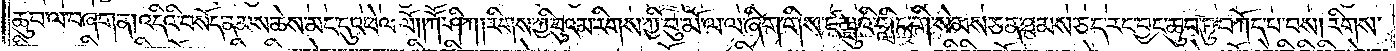ཆུབ་ལ་བཞག་ན། འདིའི་བསོད་ནམས་ཆེས་མང་དུ་འཕེལ་ལོ༎ཀཽ་ཤི་ཀ། རིགས་ཀྱི་བུའམ་རིགས་ཀྱི་བུ་མོ་ལ་ལ་ཞིག་གིས་ཛམྦུའི་གླིང་གི་སེམས་ཅན་ཐམས་ཅད་རང་བྱང་ཆུབ་ཏུ་བཀོད་པ་བས། རིགས་
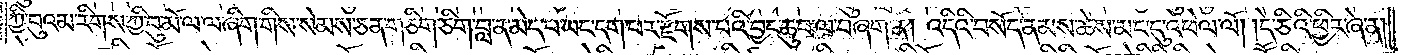ཀྱི་བུའམ་རིགས་ཀྱི་བུ་མོ་ལ་ལ་ཞིག་གིས་སེམས་ཅན་གཅིག་ཅིག་བླ་ན་མེད་པ་ཡང་དག་པར་རྫོགས་པའི་བྱང་ཆུབ་ལ་བཞག་ན། འདིའི་བསོད་ནམས་ཆེས་མང་དུ་འཕེལ་ལོ། །དེ་ཅིའི་ཕྱིར་ཞེ་ན།
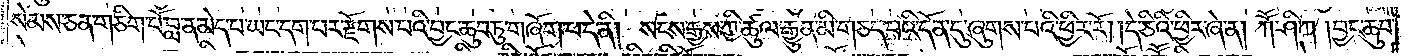སེམས་ཅན་གཅིག་པོ་བླ་ན་མེད་པ་ཡང་དག་པར་རྫོགས་པའི་བྱང་ཆུབ་ཏུ་གཞོག་པ་དེ་ནི། སངས་རྒྱས་ཀྱི་ཚུལ་རྒྱུན་མི་གཅད་པའི་དོན་དུ་ཞུགས་པའི་ཕྱིར་རོ། །དེ་ཅིའི་ཕྱིར་ཞེ་ན། ཀཽ་ཤི་ཀ །བྱང་ཆུབ་
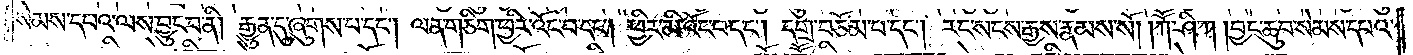སེམས་དཔའ་ལས་བྱུང་བ་ནི། རྒྱུན་དུ་ཞུགས་པ་དང༌། ལན་གཅིག་ཕྱིར་འོང་བ་དང༌། ཕྱིར་མི་འོང་བ་དང༌། དགྲ་བཅོམ་པ་དང༌། རང་སངས་རྒྱས་རྣམས་སོ། །ཀཽ་ཤི་ཀ །བྱང་ཆུབ་སེམས་དཔའ་
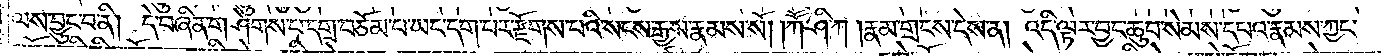ལས་བྱུང་བ་ནི། དེ་བཞིན་གཤེགས་པ་དགྲ་བཅོམ་པ་ཡང་དག་པར་རྫོགས་པའི་སངས་རྒྱས་རྣམས་སོ། །ཀཽ་ཤི་ཀ །རྣམ་གྲངས་དེས་ན། འདི་ལྟར་བྱང་ཆུབ་སེམས་དཔའ་རྣམས་ཀྱང་
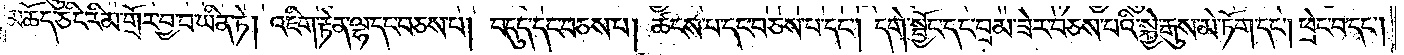མཆོད་ཅིང་རིམ་གྲོར་བྱ་བ་ཡིན་ཏེ། འཇིག་རྟེན་ལྷ་དང་བཅས་པ། བདུད་དང་བཅས་པ། ཚངས་པ་དང་བཅས་པ་དང༌། དགེ་སྦྱོང་དང་བྲམ་ཟེར་བཅས་པའི་སྐྱེ་དགུས་མེ་ཏོག་དང༌། ཕྲེང་བ་དང༌།
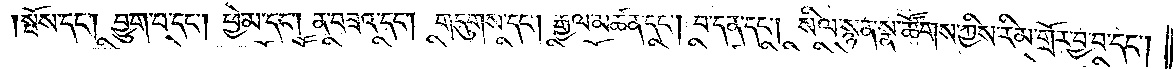སྤོས་དང༌། བྱུག་པ་དང༌། ཕྱེ་མ་དང༌། ན་བཟའ་དང༌། གདུགས་དང༌། རྒྱལ་མཚན་དང༌། བ་དན་དང༌། སིལ་སྙན་སྣ་ཚོགས་ཀྱིས་རིམ་གྲོར་བྱ་བ་དང༌།
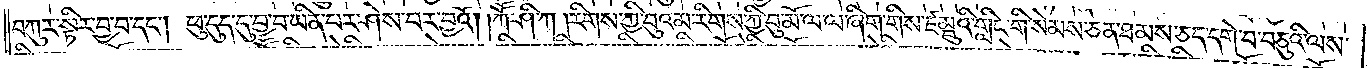བཀུར་སྟིར་བྱ་བ་དང༌། ཕུ་དུད་དུ་བྱ་བ་ཡིན་པར་ཤེས་པར་བྱའོ། །ཀཽ་ཤི་ཀ །རིགས་ཀྱི་བུའམ་རིགས་ཀྱི་བུ་མོ་ལ་ལ་ཞིག་གིས་ཛམྦུའི་གླིང་གི་སེམས་ཅན་ཐམས་ཅད་དགེ་བ་བཅུའི་ལས་
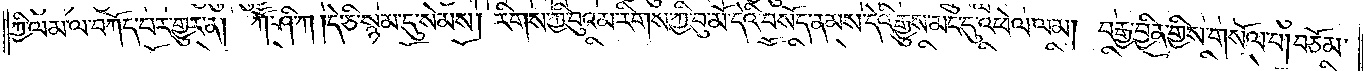ཀྱི་ལམ་ལ་བཀོད་པར་གྱུར་ན། ཀཽ་ཤི་ཀ །དེ་ཅི་སྙམ་དུ་སེམས། རིགས་ཀྱི་བུའམ་རིགས་ཀྱི་བུ་མོ་དེའི་བསོད་ནམས་དེའི་རྒྱུས་མང་དུ་འཕེལ་ལམ། བརྒྱ་བྱིན་གྱིས་གསོལ་བ། བཅོམ་
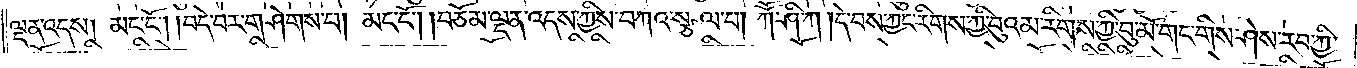ལྡན་འདས། མང་ངོ༌། །བདེ་བར་གཤེགས་པ། མང་ངོ༌། །བཅོམ་ལྡན་འདས་ཀྱིས་བཀའ་སྩལ་པ། ཀཽ་ཤི་ཀ །དེ་བས་ཀྱང་རིགས་ཀྱི་བུའམ་རིགས་ཀྱི་བུ་མོ་གང་གིས་ཤེས་རབ་ཀྱི་
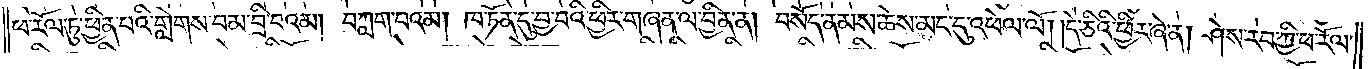ཕ་རོལ་ཏུ་ཕྱིན་པའི་གླེགས་བམ་བྲི་བའམ། བཀླག་པའམ། །ཁ་ཏོན་དུ་བྱ་བའི་ཕྱིར་གཞན་ལ་བྱིན་ན། བསོད་ནམས་ཆེས་མང་དུ་འཕེལ་ལོ། །དེ་ཅིའི་ཕྱིར་ཞེ་ན། ཤེས་རབ་ཀྱི་ཕ་རོལ་
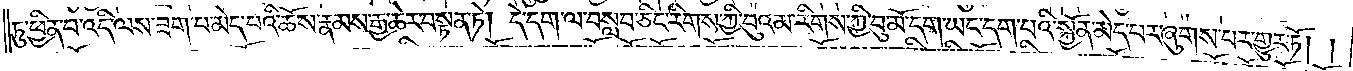ཏུ་ཕྱིན་པ་འདི་ལས་ཟག་པ་མེད་པའི་ཆོས་རྣམས་རྒྱ་ཆེར་བསྟན་ཏེ། དེ་དག་ལ་བསླབ་ཅིང་རིགས་ཀྱི་བུའམ་རིགས་ཀྱི་བུ་མོ་དག་ཡང་དག་པའི་སྐྱོན་མེད་པར་ཞུགས་པར་གྱུར་ཏོ། །
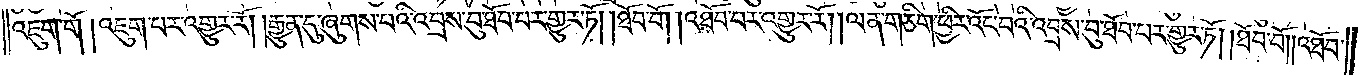འཇུག་གོ །འཇུག་པར་འགྱུར་རོ། །རྒྱུན་དུ་ཞུགས་པའི་འབྲས་བུ་ཐོབ་པར་གྱུར་ཏོ། །ཐོབ་བོ། འཐོབ་པར་འགྱུར་རོ། །ལན་གཅིག་ཕྱིར་འོང་བའི་འབྲས་བུ་ཐོབ་པར་གྱུར་ཏོ། །ཐོབ་བོ། འཐོབ་
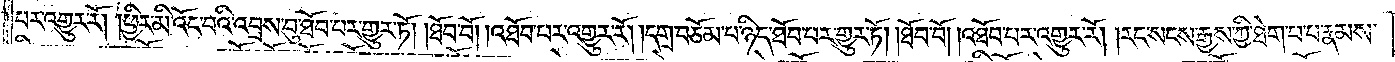པར་འགྱུར་རོ། །ཕྱིར་མི་འོང་བའི་འབྲས་བུ་ཐོབ་པར་གྱུར་ཏོ། །ཐོབ་པོ། །འཐོབ་པར་འགྱུར་རོ། །དགྲ་བཅོམ་པ་ཉིད་ཐོབ་པར་གྱུར་ཏོ། །ཐོབ་བོ། །འཐོབ་པར་འགྱུར་རོ། །རང་སངས་རྒྱས་ཀྱི་ཐེག་པ་པ་རྣམས་
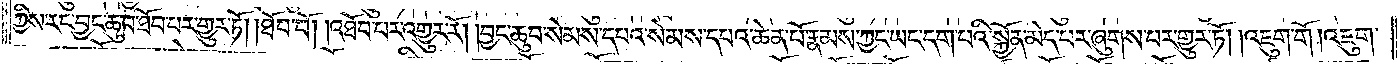ཀྱིས་རང་བྱང་ཆུབ་ཐོབ་པར་གྱུར་ཏོ། །ཐོབ་བོ། འཐོབ་པར་འགྱུར་རོ། །བྱང་ཆུབ་སེམས་དཔའ་སེམས་དཔའ་ཆེན་པོ་རྣམས་ཀྱང་ཡང་དག་པའི་སྐྱོན་མེད་པར་ཞུགས་པར་གྱུར་ཏོ། །འཇུག་གོ །འཇུག་
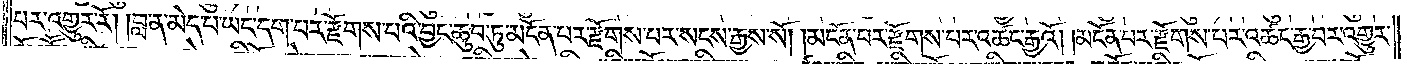པར་འགྱུར་རོ། །བླ་ན་མེད་པ་ཡང་དག་པར་རྫོགས་པའི་བྱང་ཆུབ་ཏུ་མངོན་པར་རྫོགས་པར་སངས་རྒྱས་སོ། །མངོན་པར་རྫོགས་པར་འཚང་རྒྱའོ། །མངོན་བར་རྫོགས་པར་འཚང་རྒྱ་བར་འགྱུར་
